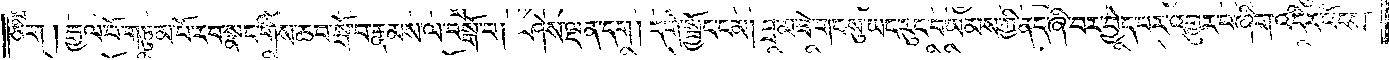ཅིག །རྒྱལ་པོ་གཏུམ་པོ་རབ་སྣང་གིས་ཆབ་སྒོ་བ་རྣམས་ལ་བསྒོ་བ། ཤེས་ལྡན་དག །དགེ་སྦྱོང་ངམ། བྲམ་ཟེ་གང་སུ་ཡང་རུང་བ་ཡམས་ཀྱི་ནད་ཞི་བར་བྱེད་པར་འགྱུར་བ་ཞིག་འདིར་འོངས་
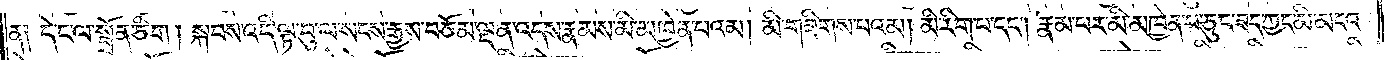ན། དེ་ང་ལ་སྦྲོན་ཅིག །སྐབས་འདི་ལྟ་བུ་ལ་སངས་རྒྱས་བཅོམ་ལྡན་འདས་རྣམས་མི་མཁྱེན་པའམ། མི་གཟིགས་པའམ། མི་རིག་པ་དང༌། རྣམ་པར་མི་མཁྱེན་པ་ཅུང་ཟད་ཀྱང་མི་མངའ་
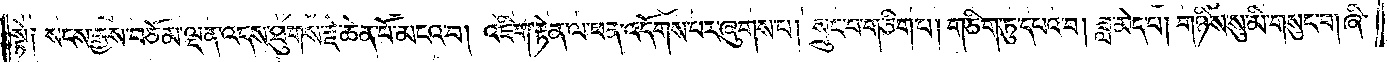སྟེ༑ སངས་རྒྱས་བཅོམ་ལྡན་འདས་ཐུགས་རྗེ་ཆེན་པོ་མངའ་བ། འཇིག་རྟེན་ལ་ཕན་འདོགས་པར་ཞུགས་པ། སྲུང་བ་གཅིག་པ། གཅིག་ཏུ་དཔའ་བ། ཟླ་མེད་པ། གཉིས་སུ་མི་གསུང་བ། ཞི་
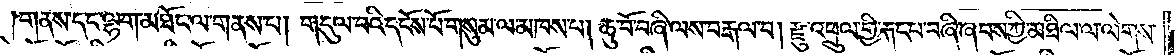གནས་དང་ལྷག་མཐོང་ལ་གནས་པ། གདུལ་བའི་དངོས་པོ་གསུམ་ལ་མཁས་པ། ཆུ་བོ་བཞི་ལས་བརྒལ་བ། རྫུ་འཕྲུལ་གྱི་རྐང་པ་བཞི་ཞབས་ཀྱི་མཐིལ་ལ་ལེགས་
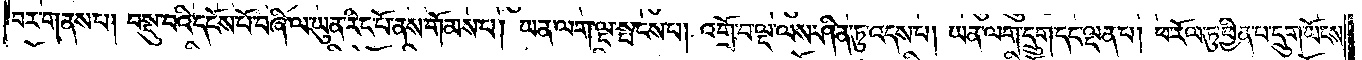བར་གནས་པ། བསྡུ་བའི་དངོས་པོ་བཞི་ལ་ཡུན་རིང་པོ་ནས་གོམས་པ། ཡན་ལག་ལྔ་སྤངས་པ། འགྲོ་བ་ལྔ་ལས་ཤིན་ཏུ་འདས་པ། ཡན་ལག་དྲུག་དང་ལྡན་པ། ཕ་རོལ་ཏུ་ཕྱིན་པ་དྲུག་ཡོངས་
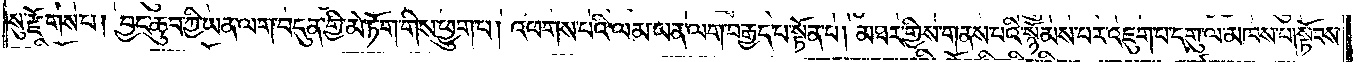སུ་རྫོགས་པ། བྱང་ཆུབ་ཀྱི་ཡན་ལག་བདུན་གྱི་མེ་ཏོག་གིས་ཕྱུག་པ། འཕགས་པའི་ལམ་ཡན་ལག་བརྒྱད་པ་སྟོན་པ། མཐར་གྱིས་གནས་པའི་སྙོམས་པར་འཇུག་པ་དགུ་ལ་མཁས་པ།སྟོབས་
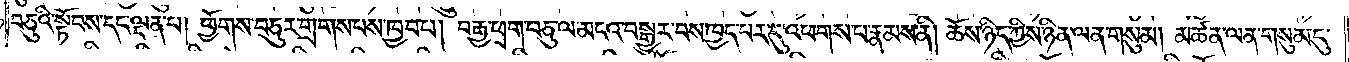བཅུའི་སྟོབས་དང་ལྡན་པ། ཕྱོགས་བཅུར་གྲགས་པས་ཁྱབ་པ་།བརྒྱ་ཕྲག་བཅུ་ལ་མངའ་བསྒྱུར་བས་ཁྱད་པར་དུ་འཕགས་པ་རྣམས་ནི། ཆོས་ཉིད་ཀྱིས་ཉིན་ལན་གསུམ། མཚན་ལན་གསུམ་དུ་
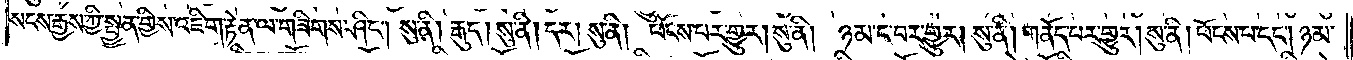སངས་རྒྱས་ཀྱི་སྤྱན་གྱིས་འཇིག་རྟེན་ལ་གཟིགས་ཤིང༌། སུ་ནི། རྒུད། སུ་ནི། དར། སུ་ནི། ཕོངས་པར་གྱུར། སུ་ནི། ཉམ་ང་བར་གྱུར། སུ་ནི། གནོད་པར་གྱུར། སུ་ནི། ཕོངས་པ་དང༌། ཉམ་
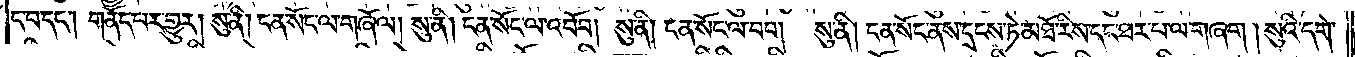ང་བ་དང༌། གནོད་པར་གྱུར། སུ་ནི། ངན་སོང་ལ་གཞོལ། སུ་ནི། ངན་སོང་ལ་འབོབ། སུ་ནི། ངན་སོང་ལ་བབ། སུ་ནི། ངན་སོང་ནས་དྲངས་ཏེ་མཐོ་རིས་དང་ཐར་པ་ལ་གཞག །སུའི་དགེ་
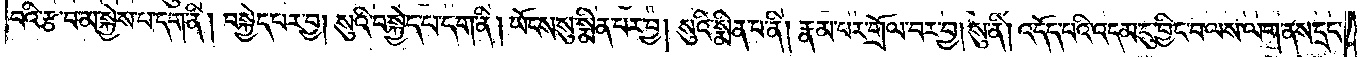བའི་རྩ་བ་མ་སྐྱེས་པ་དག་ནི། བསྐྱེད་པར་བྱ། སུའི་བསྐྱེད་པ་དག་ནི། ཡོངས་སུ་སྨིན་པར་བྱ། སུའི་སྨིན་པ་ནི། རྣམ་པར་གྲོལ་བར་བྱ། སུ་ནི། འདོད་པའི་འདམ་དུ་བྱིང་བ་ལས་ལག་ནས་དྲང་
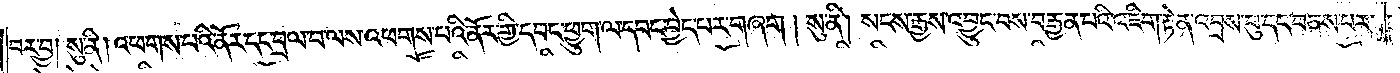བར་བྱ། སུ་ནི། འཕགས་པའི་ནོར་དང་བྲལ་བ་ལས་འཕགས་པའི་ནོར་གྱི་དབང་ཕྱུག་ལ་དབང་བྱེད་པར་གཞག །སུ་ནི། སངས་རྒྱས་འབྱུང་བས་བརྒྱན་པའི་འཇིག་རྟེན་འབྲས་བུ་དང་བཅས་པར་
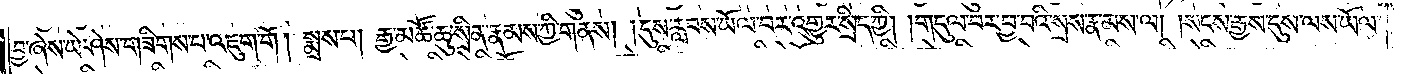བྱ་ཞེས་ཡེ་ཤེས་གཟིགས་པ་འཇུག་གོ །སྨྲས་པ། རྒྱ་མཚོ་ཆུ་སྲིན་རྣམས་ཀྱི་གནས། །དུས་རླབས་ཡོལ་བར་འགྱུར་སྲིད་ཀྱི། །གདུལ་བར་བྱ་བའི་སྲས་རྣམས་ལ། །སངས་རྒྱས་དུས་ལས་ཡོལ་
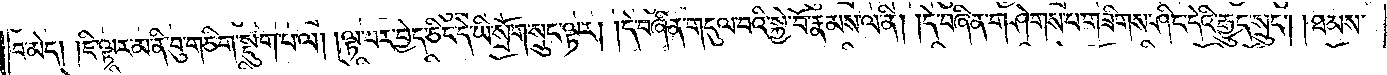བ་མེད། །ཇི་ལྟར་མ་ནི་བུ་གཅིག་སྡུག་པ་ལ། །ལྟ་བར་བྱེད་ཅིང་དེ་ཡི་སྲོག་སྲུང་ལྟར། །དེ་བཞིན་གདུལ་བའི་སྐྱེ་བོ་རྣམས་ལ་ནི། །དེ་བཞིན་གཤེགས་པ་གཟིགས་ཤིང་དེའི་རྒྱུད་སྲུང༌། །ཐམས་
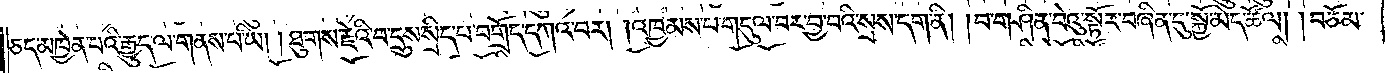ཅད་མཁྱེན་པའི་རྒྱུད་ལ་གནས་པ་ཡི། །ཐུགས་རྗེའི་བ་དྲུས་སྲིད་པ་བགྲོད་དཀའ་བར། །འཁྱམས་པ་གདུལ་བར་བྱ་བའི་སྲས་དག་ནི། །བ་གཤིན་བེའུ་སྟོར་བཞིན་དུ་སྐྱོ་མེད་ཚོལ། །བཅོམ་
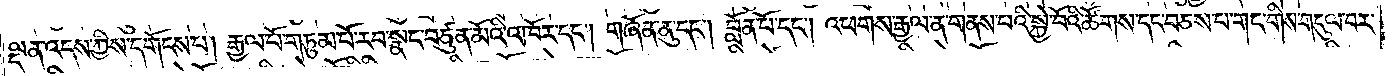ལྡན་འདས་ཀྱིས་དགོངས་པ། རྒྱལ་པོ་གཏུམ་པོ་རབ་སྣང་བཙུན་མོའི་འཁོར་དང༌། གཞོན་ནུ་དང༌། བློན་པོ་དང༌། འཕགས་རྒྱལ་ན་གནས་པའི་སྐྱེ་བོའི་ཚོགས་དང་བཅས་པ་གང་གིས་གདུལ་བར་
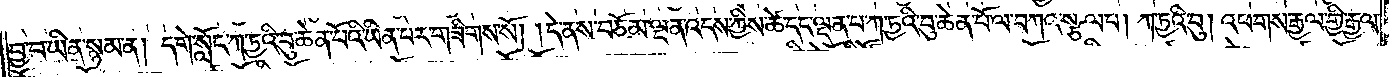བྱ་བ་ཡིན་སྙམ་ན། དགེ་སློང་ཀ་ཏྱའི་བུ་ཆེན་པོའི་ཡིན་པར་གཟིགས་སོ། །དེ་ནས་བཅོམ་ལྡན་འདས་ཀྱིས་ཚེ་དང་ལྡན་པ་ཀ་ཏྱའི་བུ་ཆེན་པོ་ལ་བཀའ་སྩལ་པ། ཀ་ཏྱའི་བུ། འཕགས་རྒྱལ་གྱི་རྒྱལ་
